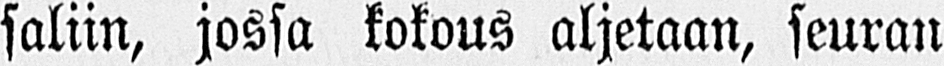saliin, jossa kokous aljetaan, seuran
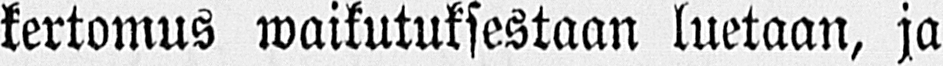kertomus waikutuksestaan luetaan, ja
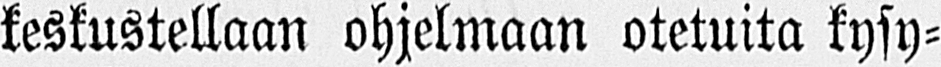keskustellaan ohjelmaan otetutta kysy-
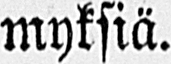myksiä.
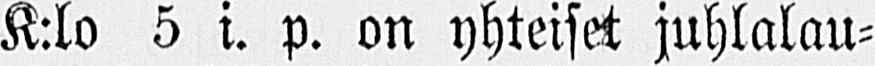K:lo 5 i. p. on yhteiset juhlalau-
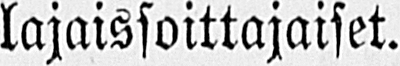lajaissoittajaiset.
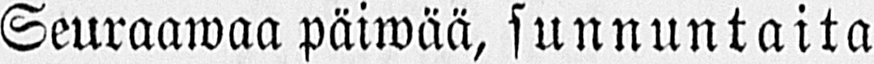Seuraawaa päiwää, sunnuntaita
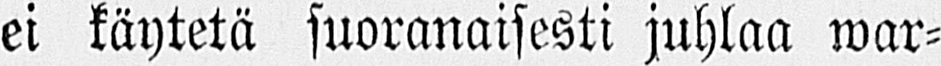ei käytetä suoranaisesti juhlaa war-
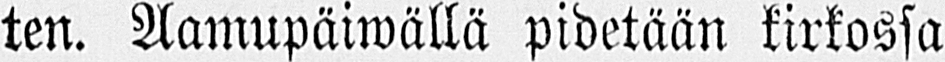ten. Aamupäiwällä pidetään kirkossa
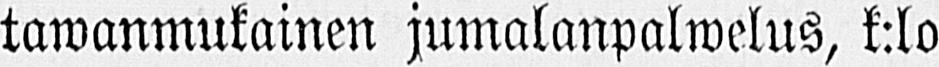tawanmukainen jumalanpalwelus, k:lo
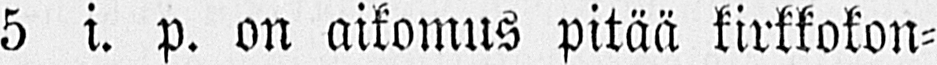5 i. p. on aikomus pitää kirkkokon-
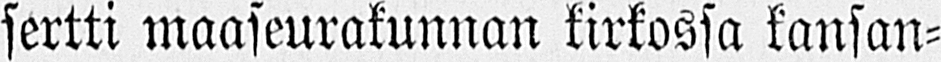sertti maaseurakunnan kirkossa kansan-
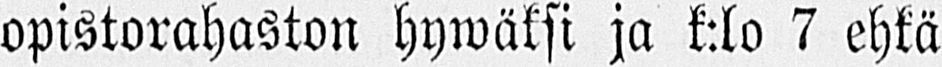opistorahaston hywäksi ja k:lo 7 ehkä
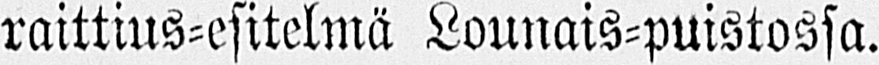raittius-esitelmä Lounais-puistossa.
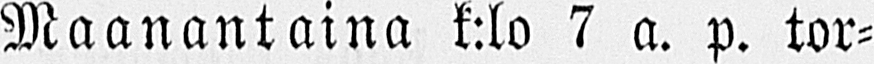Maanantaina k:lo 7 a. p. tor-
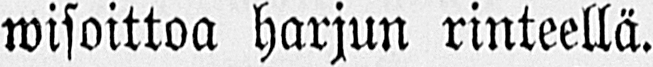wisoittoa harjun rinteellä.
